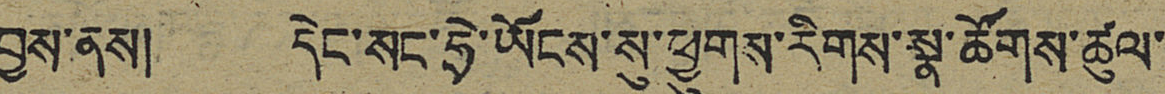བྱས་ནས། དེང་སང་ཧྲེ་ཡོངས་སུ་ཕྱུགས་རིགས་སྣ་ཚོགས་ཚུལ་
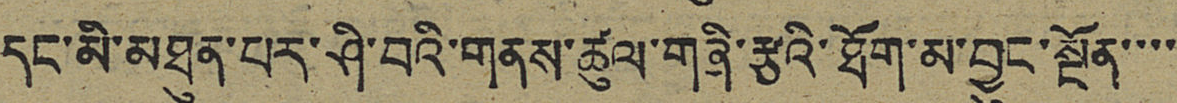དང་མི་མཐུན་པར་ཤི་བའི་གནས་ཚུལ་གཞི་རྩའི་ཐོག་མ་བྱུང་སྔོན་་་་
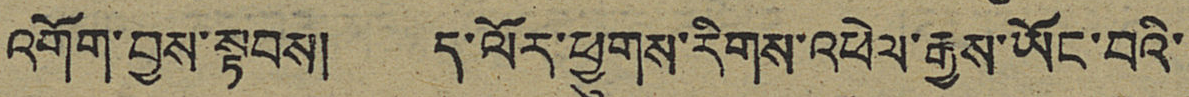འགོག་བྱས་སྟབས། ད་ལོར་ཕྱུགས་རིགས་འཕེལ་རྒྱས་ཡོང་བའི་
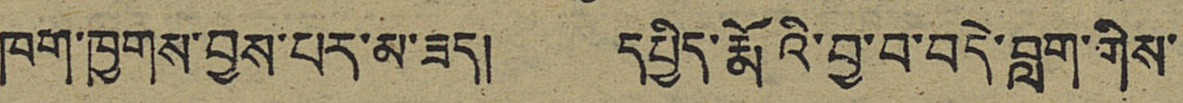ཁག་ཁྱགས་བྱས་པར་མ་ཟད། དཔྱིད་རྨོའི་བྱ་བ་བདེ་བླག་གིས་
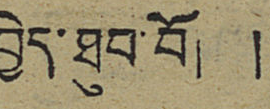བྱེད་ཐུབ་བོ། །
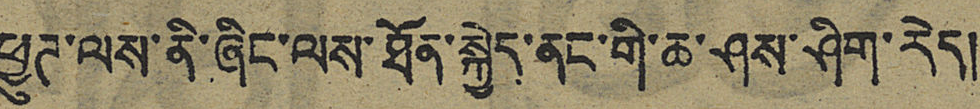ཕྱུཊ་ལས་ནི་ཞིང་ལས་ཐོན་སྐྱེད་ནང་གི་ཆ་ཤས་ཤིག་རེད།
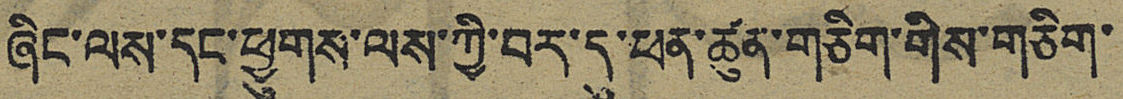ཞིང་ལས་དང་ཕྱུགས་ལས་ཀྱི་བར་དུ་ཕན་ཚུན་གཅིག་གིས་གཅིག་
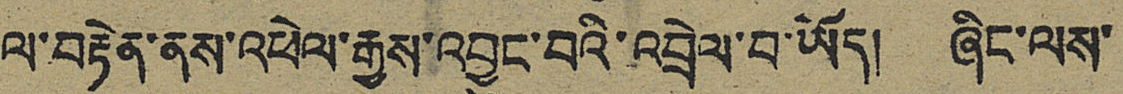ལ་བརྟེན་ནས་འཕེལ་རྒྱས་འབྱུང་བའི་འབྲེལ་བ་ཡོད། ཞིང་ལས་
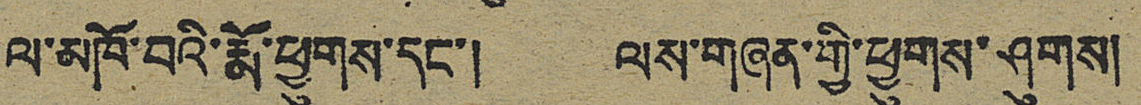ལ་མཁོ་བའི་རྨོ་ཕྱུགས་དང་། ལས་གཞན་གྱི་ཕྱུགས་ཤུགས།
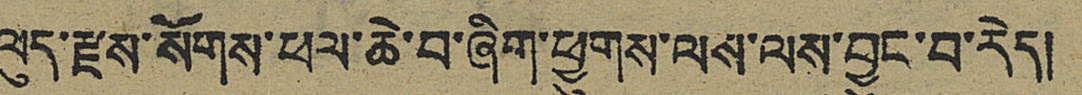ལུད་རྫས་སོགས་ཕལ་ཆེ་བ་ཞིག་ཕྱུགས་ལས་ལས་བྱུང་བ་རེད།
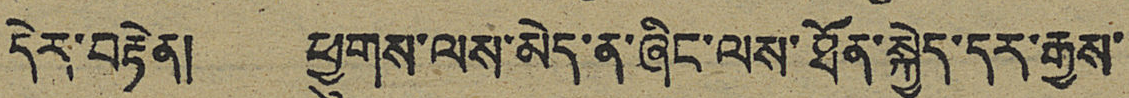དེར་བརྟེན། ཕྱུགས་ལས་མེད་ན་ཞིང་ལས་ཐོན་སྐྱེད་དར་རྒྱས་
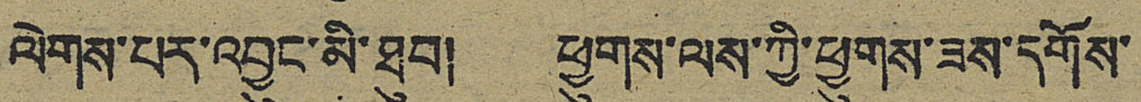ལེགས་པར་འབྱུང་མི་ཐུབ། ཕྱུགས་ལས་ཀྱི་ཕྱུགས་ཟས་དགོས་
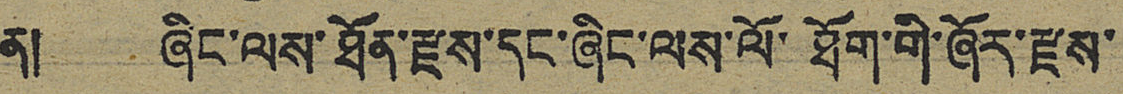ན། ཞིང་ལས་ཐོན་རྫས་དང་ཞིང་ལས་ལོ་ཐོག་གི་ཞོར་རྫས་
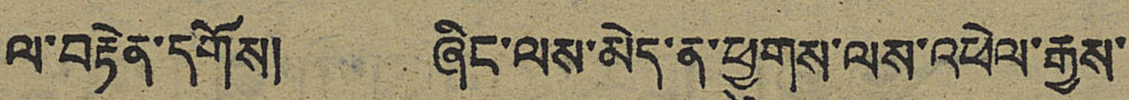ལ་བརྟེན་དགོས། ཞིང་ལས་མེད་ན་ཕྱུགས་ལས་འཕེལ་རྒྱས་
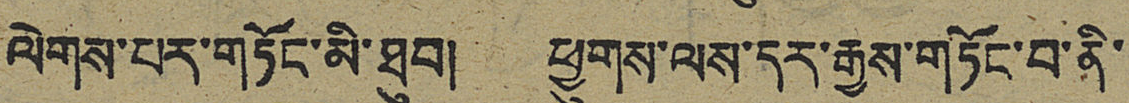ལེགས་པར་གཏོང་མི་ཐུབ། ཕྱུགས་ལས་དར་རྒྱས་གཏོང་བ་ནི་
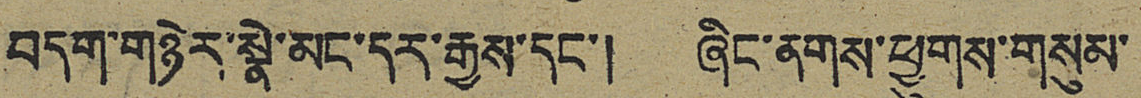བདག་གཉེར་སྣེ་མང་དར་རྒྱས་དང་། ཞིང་ནགས་ཕྱུགས་གསུམ་
